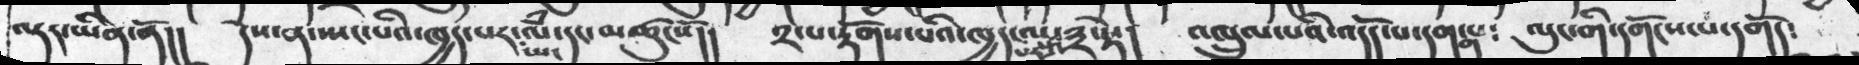ལྟར་ཡིན་ནོ།།   དེས་ན་ཡང་པའི་ཁྱད་པར་ཡང་ལཾ་དང་མཚུངསོ།།  ༢་པ་རྟོགས་པའི་ཁྱད་པར་ལ་༣་སྟེ་།   འཁྲུལ་པའི་འདོད་པ་དགག་པ༴  ལུང་གི་དགོངས་པ་དགོད༴
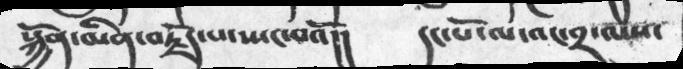སྐྱོན་མིན་བརྗོད་པ་སྤང་པའོ།།    དང་པོ་ལ་འང་༢་ལས་
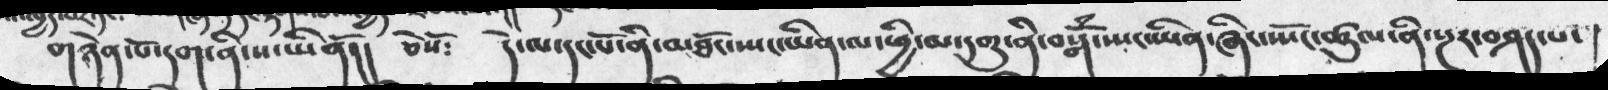གཉེན་པོ་དག་ནི་ས་ཡིནོ།།  ཅེསོ༴   དེ་ལ་དང་པོ་ནི་མཐོང་་སྤང་ཡིན་ལ་ཕྱི་མ་དགུ་ནི་བསྒོཾ་སྤང་ཡིན་ཞིང་སྤོང་ཚུལ་ནི་སྔར་བཤད་པ་
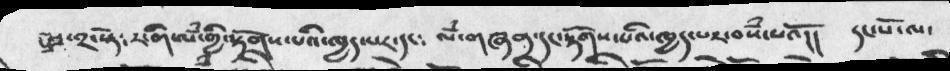༢་སྟེ༴  རང་གི་ལཾ་གྱ་རྟོགས་པའི་ཁྱད་པར་དང༴  ལཾ་གཞན་དང་རྟོགས་པའི་ཁྱད་པར་བསཾ་པའོ།།  དང་པོ་ལ་
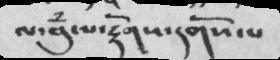ལ་བུཾ་ལ་རྟོགས་དགོས་པ
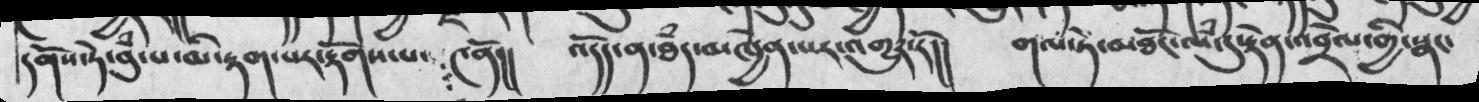དགོས་ཏེ་བུཾ་པ་མི་རྟག་པར་རྟོགས་པ་  ༤ནོ།།   འདོད་ན་ཐཾད་མཁྱེན་པར་འགྱུར་རོ།།   གལ་ཏེ་མཐོང་ལཾ་དུ་རྟེན་འབྲེལ་གྱི་སྣང་
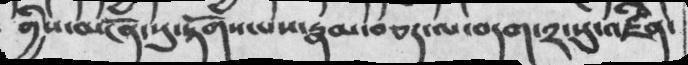གྱིས་མངོན་སུ་རྟོགས་པས་རྣམ་བཅད་ལ་བདག་༢་སུ་འཛིན་
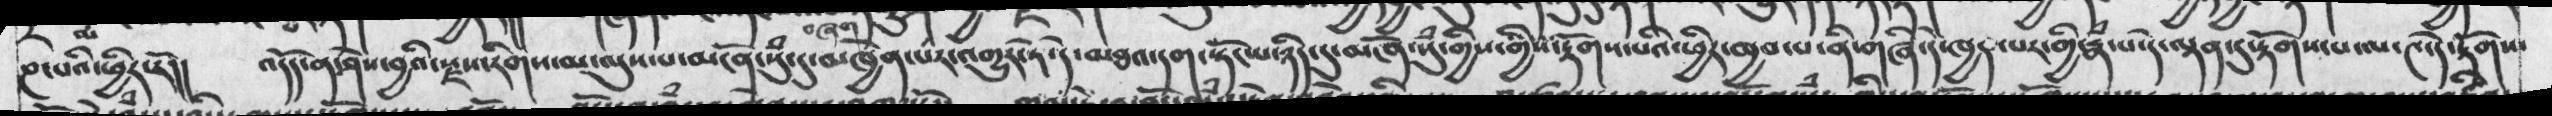ཎ་པའི་ཕྱིར་རོ།།  འདོད་ན་ཤེས་བྱའི་རྫས་རིགས་མ་ལུས་པ་མངོན་སུཾ་དུ་མཁྱེན་པར་འགྱུར་ཏེ་དེ་མཐའ་དག་སྟོང་པ་ཉིད་དུ་མངོན་སུཾ་གྱིས་གྱིས་རྟོགས་པའི་ཕྱིར་ཁྱབ་པ་ནི་གཞི་དེ་ཁྱད་པར་གྱི་རྣཾ་པ་དེ་ལྡན་དུ་རྟོགས་པ་ལ་༤་དེ་རྟོགས་
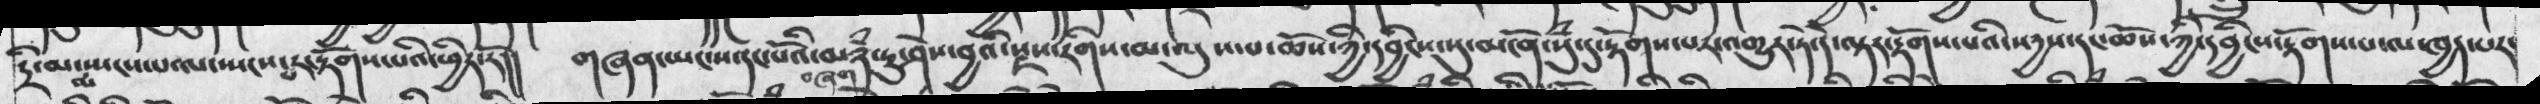དྲི་མ་ལ་སྤངས་པ་ལ་སྤངས་པར་རྟོགས་པའི་ཕྱིར་རོ།།  གཞན་ཡང་ས་དང་པོའི་མཉཾ་ཏུ་ཤེས་བྱའི་རྫས་རིགས་མ་ལུས་པ་ཆོས་དབྱིངས་སུ་མངོན་སུཾ་དུ་རྟོགས་པར་འགྱུར་ཏེ་དེ་ལྟར་རྟོགས་པའི་སདྱས་དང་ཆོས་ཀྱི་དབྱིངས་རྟོགས་པ་ལ་ཁྱད་པར་
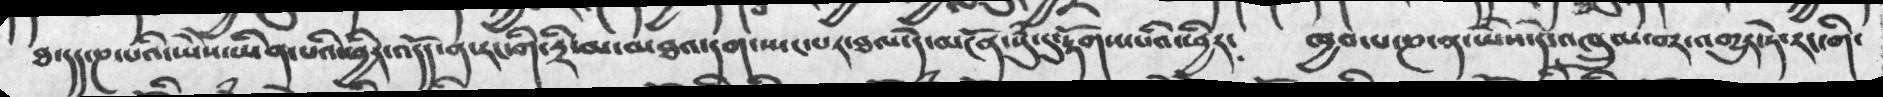ཐ་དད་ཎ་པའི་ཡེེས་ཡིན་པའི་ཕྱིར་འདོད་ན་རང་གི་དྲི་མ་མཐའ་དག་སྤང་པར་ཐལ་དེ་མངོན་སུཾ་དུ་རྟོགས་པའི་ཕྱིར༴   ཁྱབ་པ་ཎ་ན་ཡེེས་དེ་འཁྲུལ་བར་འགྱུར་ཏེ་རང་གི་
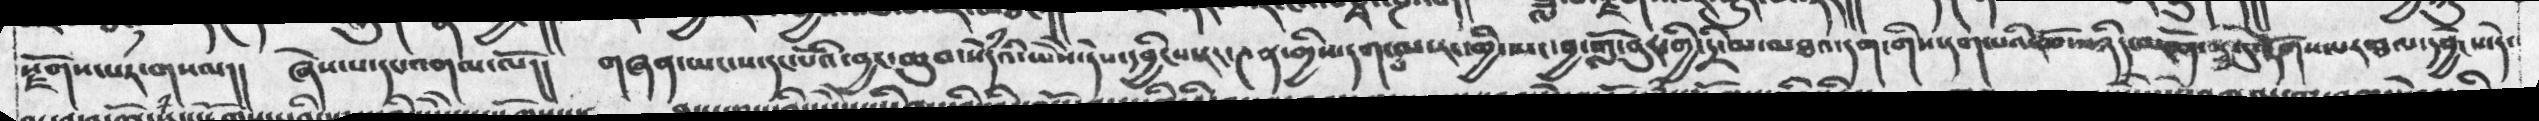རྫོགས་པར་གསལ།།  ཞེས་པ་དང་འགལ་ལོ།།  གཞན་ཡང་ས་དང་པོའི་བྱང་ཆུབ་སེཾདའི་ཡེེས་དེས་དབྱིངས་རང་༤ན་གྱིས་དག་པ་ལ་རང་གྱི་སྤང་བྱ་གློ་བར་གྱི་དྲི་མ་མཐའ་དག་གིས་དག་པའི་ངོ་བོ་ཉིད་མངོན་སུ་རྟོགས་པར་ཐལ་དབྱིངས་དེ་
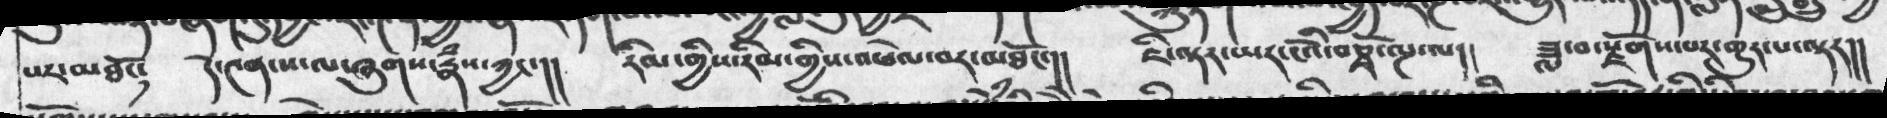པར་མཐོང༴  དེ་༤ན་ས་ལ་ཞུགས་རྣཾས་ཀྱང་།།  རིམ་གྱིས་རིམ་གྱིས་འཕེལ་བར་མཐོང་།།  ཇི་ལྟར་ཡར་ངོའི་བཅྭོ་ལྔ་ལ།།   ཟླ་བ་རྫོགས་པར་གྱུར་པ་ལྟར།།
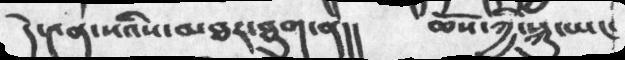དེ་༤ན་སའིས་མཐར་ཐུག་ནི།།    ཆོས་ཀྱི་སྐུ་ཡང་
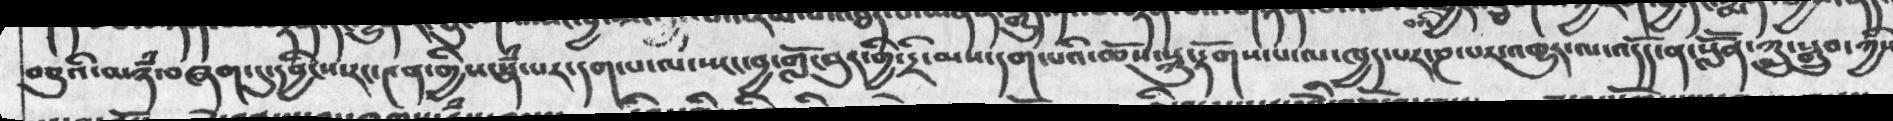བཅུའི་མཉཾ་བཞག་དུ་དབྱིངས་རང་༤ན་གྱིས་སྒོཾ་པར་དག་པ་ལ་སྤང་བྱ་གློ་བུར་གྱི་དྲི་མས་དག་པའི་ཆོས་སྐུ་རྟོགས་པ་ལ་ཁྱད་པར་ཎ་པར་འགྱུར་ལ་འདོད་ན་སློོན་ཀླུ་སྒྲུབ་ཀྱིས་
